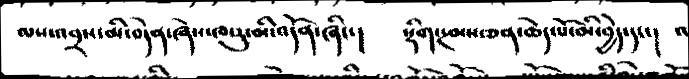ལས་འབྲས་མི་བདེན་ཞེས་ཁ་རུ་མི་འདོན་ཞིང་།   སྡིག་རྔམས་ཅན་ཆེད་པོ་མི་བྱེད་དང་།   འ
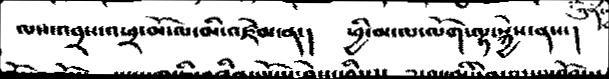ལས་འབྲས་འཕྲ་མོ་ལ་མི་འཛེམ་ན་།  ཕྱི་མ་ལ་ལོག་ལྟ་སྐྱེས་ནས་།
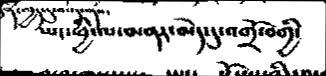ཡང་ཕྱི་མ་མནར་མེད་དུ་འགྲོ་བགྱི་
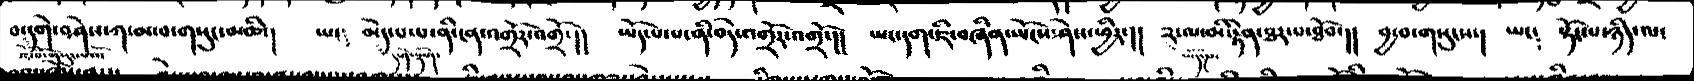བ་དགེ་བཤེས་ཀ་མ་བ་གསུང་མཆི་།   ཡང༴  མེད་པ་ལ་ནི་ངན་འགྲོར་འགྲོ་།།  ཡོད་པ་པ་ནི་བདེ་འགྲོར་འགྲོ་།།  ཡང་དག་ཇི་བཞིན་ཡོངས་ཤེས་ཕྱིར་།། ༢་ལ་མི་རྟེན་ཐར་པ་ཐོབ་།།  བྱ་བ་གསུངས་།  ཡང༴   སྟོང་པ་ཉིད་ལ་
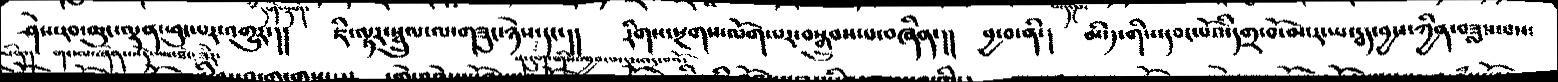ཤེས་རབ་ཆུང་ལྡན་ཕུང་པར་འགྱུར་།།  ཇི་ལྟར་སྦྲུལ་ལ་གཟང་ཉེས་དང་།།   རིགས་སྔགས་ལོག་པར་བསྒྲུབས་པ་བཞིན་།།   བྱ་བ་ནི་།    མི་༡་གིས་དབང་པོའི་དགྲ་བོ་མ་རང་ཡ་དྭད་བྱས་ཀྱིན་བཟླས་བས༴
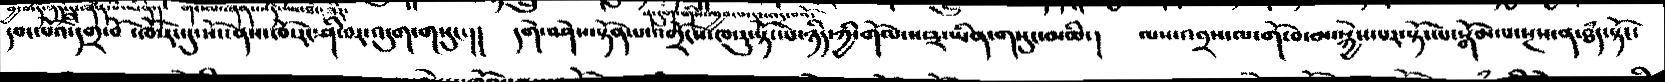དབང་པོའི་དགྲ་བོ་ ཁོ་རང་དུ་སོང་ནས་ཁོ་རང་ཤི་བར་འདུག་གསུང་།།   དགེ་བཤེས་སྟོན་པའི་གྲོངས་ཁ་རུ་སྟོང་པ་ཉིད་ཀྱི་གོལ་ས་༣་ཡིན་གསུང་མཆི་།   ལས་འབྲས་ལ་གོ་བ་མ་སྐྱེས་པར་སྟོང་པ་སྒོམ་པ་སྔས་ན་ཐཾད་སྟོང་
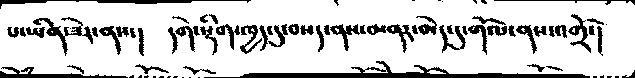པ་ཡིན་ཟེར་ནས་།    དགེ་སྡིག་ཁྱད་དུ་བསད་ནས་མནར་མེད་དུ་གོལ་ནས་འགྲོ་།
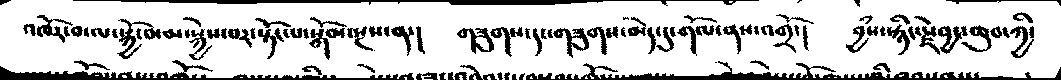འཁོར་བ་ལ་སྐྱོ་བ་མ་སྐྱོ་བ་སྐྱེས་པར་སྟོང་པ་སྒོམ་སྔས་ན་།    གཟུགས་དང་གཟུགས་མེད་དུ་གོལ་ནས་འགྲོ་།   བྱཾས་སྙིང་རྗེ་བྱང་ཆུབ་ཀྱི་
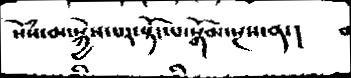སེཾས་མ་སྐྱེས་པར་སྟོང་པ་སྒོམ་སྔས་ན་།
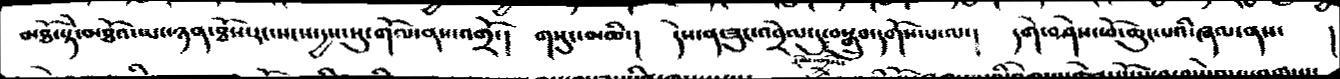མཐོ་སྟེ་མཐོའ་ཡང་ཉན་ཐོས་རང་སངས་དྱས་སུ་གོལ་ནས་འགྲོ་།   གསུང་མཆི་།   དེས་ན་ཟུང་འབྲེལ་དུ་བསྒྲུབ་དགོས་པ་ལ་།   དགེ་བཤེས་ཕོ་ཆུང་པའི་ཞལ་ནས་   །
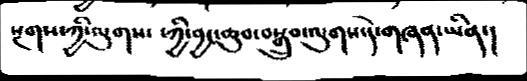སྔགས་ཀྱི་ལུགས་  ་ཀྱི་བྱང་ཆུབ་བསྒྲུབ་ལུགས་དེ་གཞན་ཡིན་།
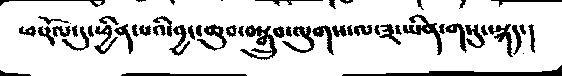ཕ་རོལ་དུ་ཕྱིན་པའི་བྱང་ཆུབ་བསྒྲུབ་ལུགས་ལ་༣་ཡིན་གསུང་སྐད་།
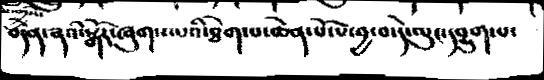བདེན་ཞའི་སྒོར་ཞུགས་པའི་ཐེག་པ་ཆེན་པོ་པ་བྱ་བ་དེ་ལུང་དབྱུག་པ་
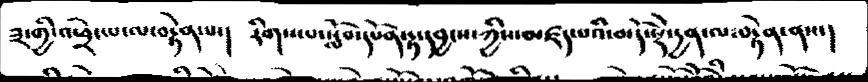༣་གྱི་འཕྲེང་པ་ལ་བརྟེན་པ་།  རིགས་པ་སློབ་དཔོན་རྟ་དབྱངས་ཀྱིས་མཛད་པའི་མདོ་སྡེ་དྱན་ལ་བརྟེན་ནས་།
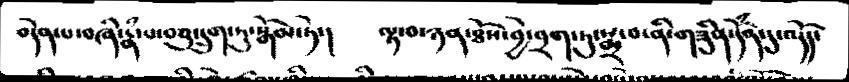བདེན་པ་བཞི་རྣཾ་པ་བཅུ་དྲུག་ཏུ་སྒོམ་ཏེ་།   ལྟ་བ་ཉན་ཐོས་བྱེ་བྲག་ཏུ་སྨྲ་བ་ནི་གཟིུན་དོཾན་དུ་འདོད་
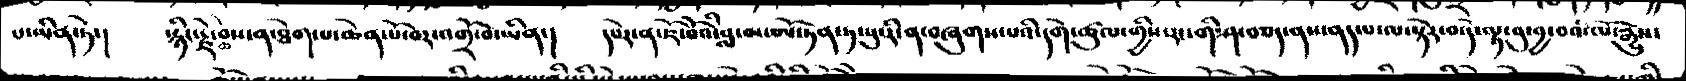པ་ཡིན་ཏེ་།    སྙིང་རྗེ་ཆེ་བས་ན་ཐེག་པ་ཆེན་པོ་བར་འགྲོ་བ་ཡིན་།   དཔེར་ན་ཇོ་བོའི་བླ་མ་ཨོ་ཏན་ཏ་སུ་རི་ན་བཞུགས་པའི་དགེ་ཚུལ་གྱིས་རང་གི་ཤ་བཅད་ནས་ནད་པ་ལ་སྟེར་བ་དེ་ལྟ་བུ་བྱ་བའི་ལོ་རྒྱུས་
